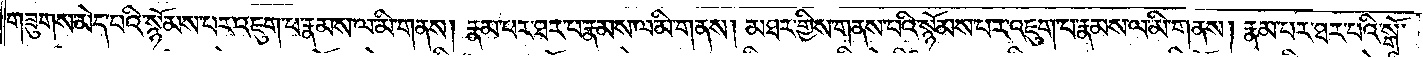གཟུགས་མེད་པའི་སྙོམས་པར་འཇུག་པ་རྣམས་ལ་མི་གནས། རྣམ་པར་ཐར་པ་རྣམས་ལ་མི་གནས། མཐར་གྱིས་གནས་པའི་སྙོམས་པར་འཇུག་པ་རྣམས་ལ་མི་གནས། རྣམ་པར་ཐར་པའི་སྒོ་
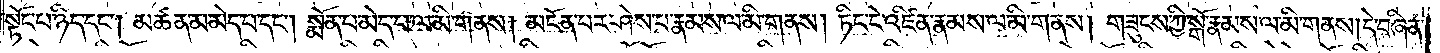སྟོང་པ་ཉིད་དང༌། མཚན་མ་མེད་པ་དང༌། སྨོན་པ་མེད་པ་ལ་མི་གནས། མངོན་པར་ཤེས་པ་རྣམས་ལ་མི་གནས། ཏིང་ངེ་འཛིན་རྣམས་ལ་མི་གནས། གཟུངས་ཀྱི་སྒོ་རྣམས་ལ་མི་གནས། །དེ་བཞིན་
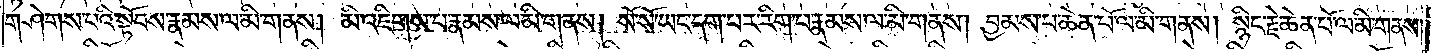གཤེགས་པའི་སྟོབས་རྣམས་ལ་མི་གནས། མི་འཇིགས་པ་རྣམས་ལ་མི་གནས། སོ་སོ་ཡང་དག་པར་རིག་པ་རྣམས་ལ་མི་གནས། བྱམས་པ་ཆེན་པོ་ལ་མི་གནས། སྙིང་རྗེ་ཆེན་པོ་ལ་མི་གནས།
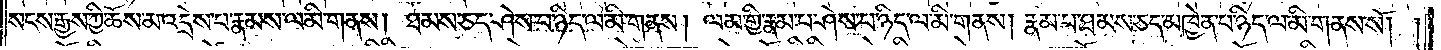སངས་རྒྱས་ཀྱི་ཆོས་མ་འདྲེས་པ་རྣམས་ལ་མི་གནས། ཐམས་ཅད་ཤེས་པ་ཉིད་ལ་མི་གནས། ལམ་གྱི་རྣམ་པར་ཤེས་པ་ཉིད་ལ་མི་གནས། རྣམ་པ་ཐམས་ཅད་མཁྱེན་པ་ཉིད་ལ་མི་གནས་སོ། །
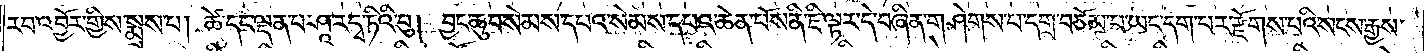རབ་འབྱོར་གྱིས་སྨྲས་པ། ཚེ་དང་ལྡན་པ་ཤཱ་ར་དྭ་ཏིའི་བུ། བྱང་ཆུབ་སེམས་དཔའ་སེམས་དཔའ་ཆེན་པོས་ནི་ཇི་ལྟར་དེ་བཞིན་གཤེགས་པ་དགྲ་བཅོམ་པ་ཡང་དག་པར་རྫོགས་པའི་སངས་རྒྱས་
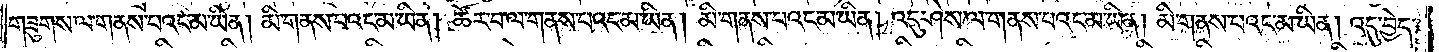གཟུགས་ལ་གནས་པའང་མ་ཡིན། མི་གནས་པའང་མ་ཡིན། ཚོར་བ་ལ་གནས་པའང་མ་ཡིན། མི་གནས་པའང་མ་ཡིན། འདུ་ཤེས་ལ་གནས་པའང་མ་ཡིན། མི་གནས་པའང་མ་ཡིན། འདུ་བྱེད་
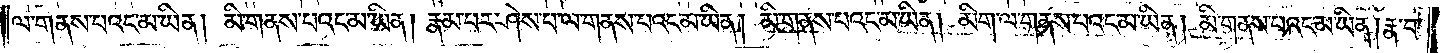ལ་གནས་པའང་མ་ཡིན། མི་གནས་པའང་མ་ཡིན། རྣམ་པར་ཤེས་པ་ལ་གནས་པའང་མ་ཡིན་མི་གནས་པའང་མ་ཡིན། མིག་ལ་གནས་པའང་མ་ཡིན། མི་གནས་པའང་མ་ཡིན། རྣ་བ་
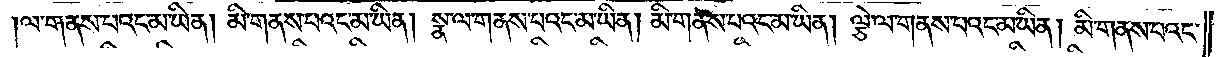ལ་གནས་པའང་མ་ཡིན། མི་གནས་པའང་མ་ཡིན། སྣ་ལ་གནས་པའང་མ་ཡིན། མི་གནས་པའང་མ་ཡིན། ལྕེ་ལ་གནས་པའང་མ་ཡིན། མི་གནས་པའང་
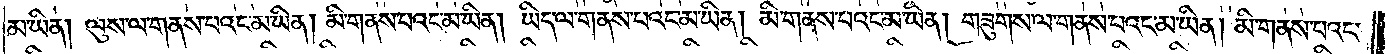མ་ཡིན། ལུས་ལ་གནས་པའང་མ་ཡིན། མི་གནས་པའང་མ་ཡིན། ཡིད་ལ་གནས་པའང་མ་ཡིན། མི་གནས་པའང་མ་ཡིན། གཟུགས་ལ་གནས་པའང་མ་ཡིན། མི་གནས་པའང་
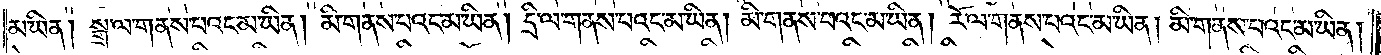མ་ཡིན། སྒྲ་ལ་གནས་པའང་མ་ཡིན། མི་གནས་པའང་མ་ཡིན། དྲི་ལ་གནས་པའང་མ་ཡིན། མི་གནས་པའང་མ་ཡིན། རོ་ལ་གནས་པའང་མ་ཡིན། མི་གནས་པའང་མ་ཡིན།
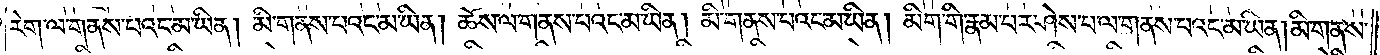རེག་ལ་གནས་པའང་མ་ཡིན། མི་གནས་པའང་མ་ཡིན། ཆོས་ལ་གནས་པའང་མ་ཡིན། མི་གནས་པའང་མ་ཡིན། མིག་གི་རྣམ་པར་ཤེས་པ་ལ་གནས་པའང་མ་ཡིན། མི་གནས་
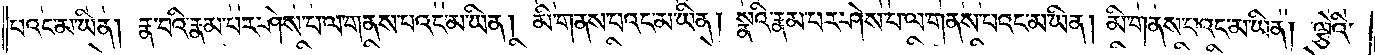པའང་མ་ཡིན། རྣ་བའི་རྣམ་པར་ཤེས་པ་ལ་གནས་པའང་མ་ཡིན། མི་གནས་པའང་མ་ཡིན། སྣའི་རྣམ་པར་ཤེས་པ་ལ་གནས་པའང་མ་ཡིན། མི་གནས་པའང་མ་ཡིན། ལྕེའི་
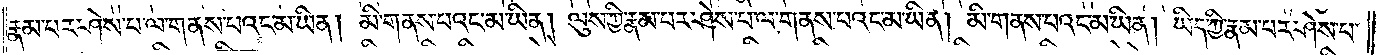རྣམ་པར་ཤེས་པ་ལ་གནས་པའང་མ་ཡིན། མི་གནས་པའང་མ་ཡིན། ལུས་ཀྱི་རྣམ་པར་ཤེས་པ་ལ་གནས་པའང་མ་ཡིན། མི་གནས་པའང་མ་ཡིན། ཡིད་ཀྱི་རྣམ་པར་ཤེས་པ་
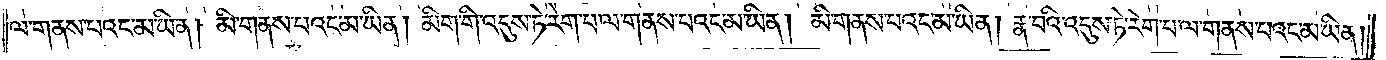ལ་གནས་པའང་མ་ཡིན། མི་གནས་པའང་མ་ཡིན། མིག་གི་འདུས་ཏེ་རེག་པ་ལ་གནས་པའང་མ་ཡིན། མི་གནས་པའང་མ་ཡིན། རྣ་བའི་འདུས་ཏེ་རེག་པ་ལ་གནས་པའང་མ་ཡིན།
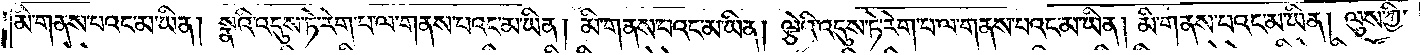མི་གནས་པའང་མ་ཡིན། སྣའི་འདུས་ཏེ་རེག་པ་ལ་གནས་པའང་མ་ཡིན། མི་གནས་པའང་མ་ཡིན། ལྕེའི་འདུས་ཏེ་རེག་པ་ལ་གནས་པའང་མ་ཡིན། མི་གནས་པའང་མ་ཡིན། ལུས་ཀྱི་
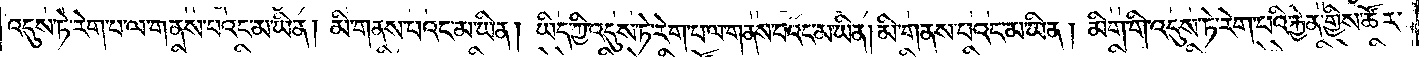འདུས་ཏེ་རེག་པ་ལ་གནས་པའང་མ་ཡིན། མི་གནས་པའང་མ་ཡིན། ཡིད་ཀྱི་འདུས་ཏེ་རེག་པ་ལ་གནས་པའང་མ་ཡིན། མི་གནས་པའང་མ་ཡིན། མིག་གི་འདུས་ཏེ་རེག་པའི་རྐྱེན་གྱིས་ཚོར་
